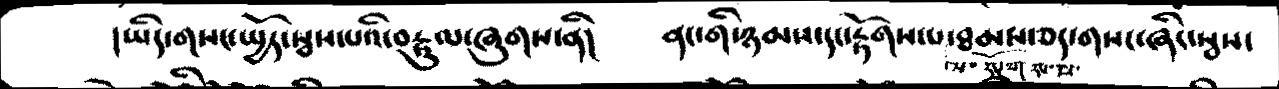།ཡིད་གསང་སྤྱོད་སྦས་པའི་བརྟུལ་ཞུགས་ནི།   ནང་གི་ཉམས་དང་རྟོགས་པ་ཐམས་ཅད་གསང་ཞིང་སྦས་
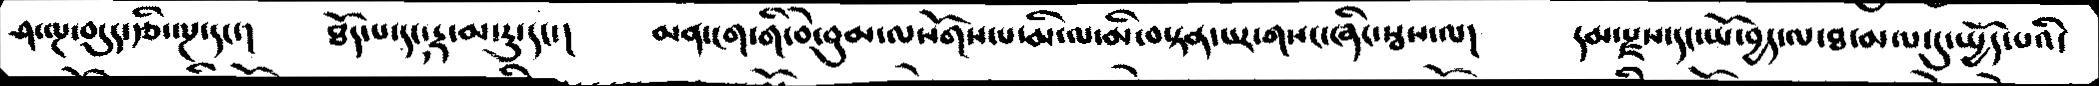ཤ་ལྔ་བདུད་རྩི་ལྔ་དང་།   ཐོད་པ་དང་རྡ་མ་རུ་དང་།   མན་ངག་གི་བེ་བུམ་ལསོགས་པ་མི་ལ་མི་བསྟན་པར་གསང་ཞིང་སྦས་ལ།   དམ་རྫས་དང་ཡོ་བྱད་ལ་ཐ་མལ་དུ་སྤྱོད་པའི་
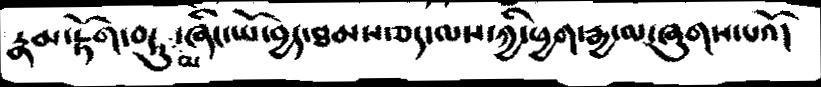རྣམ་རྟོག་བཏུམ་ཞིང་ཡོ་བྱད་ཐམས་ཅད་ལས་ཀྱི་ཕྱག་རྒྱ་ལ་ཞུགས་པའོ།
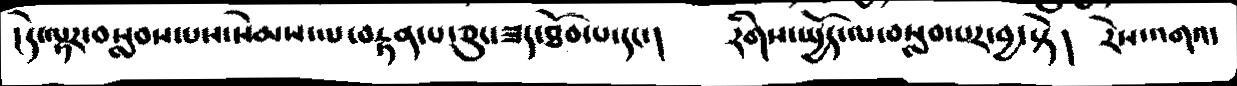།དེ་ལྟར་བསླབས་པས་སེམས་ལ་བརྟན་པ་ཅུང་ཟད་ཐོབ་པ་དང་།     རིགས་སྤྱོད་ལ་བསླབ་པར་བྱ་སྟེ།   རེས་འགའ་
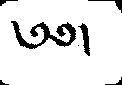༄༅།
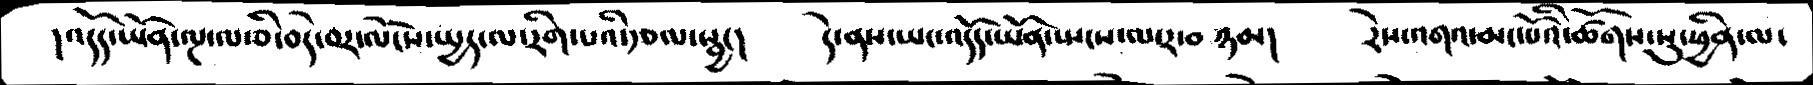།འདོད་ཡོན་ལྔ་ལ་ཅི་བདེ་བར་ལོངས་སྤྱད་ལ་རིག་པའི་རྩལ་སྦྱང།   དེ་ནས་ཡང་འདོད་ཡོན་སྤངས་ལ་ར་བ ཉམ།  རེས་འགའ་མང་པོའི་ཚོགས་སུ་ཕྱིན་ལ་
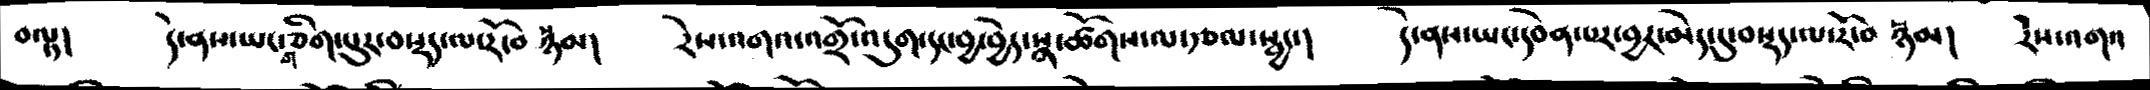བལྟ།   དེ་ནས་ཡང་གཅིག་པུར་བསྡད་ལ་རོ་བསྙམ།   རེས་འགའ་འགྲོ་འདུག་དང་བྱ་བྱེད་སྣ་ཚོགས་ལ་རྩལ་སྦྱང་།   དེ་ནས་ཡང་དབེན་པར་བྱར་མེད་དུ་བསྡད་ལ་རོ་བསྙམ།   རེས་འགའ་
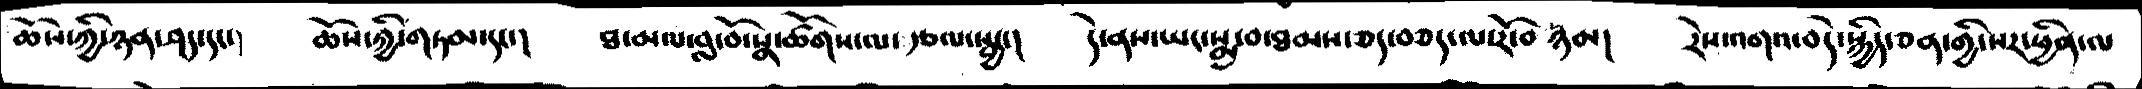ཆོས་ཀྱི་ཉན་ཤད་དང་།   ཆོས་ཀྱི་གཏམ་དང་།   ཐ་མ་ལ་བླ་བོ་སྣ་ཚོགས་ལ་རྩལ་སྦྱང།    དེ་ནས་ཡང་སྨྲ་བ་ཐམས་ཅད་བཅད་ལ་རོ་བསྙམ།   རེས་འགའ་བདེ་སྐྱིད་ཅན་གྱི་སར་ཕྱིན་ལ
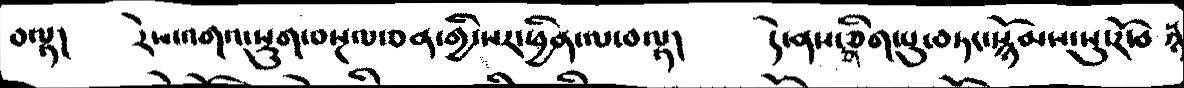བལྟ།   རེས་འགའ་སྡུག་བསྔལ་ཅན་གྱི་སར་ཕྱིན་ལ་བལྟ།   དེ་ནས་གཅིག་པུ་བཏང་སྙོམས་སུ་རོ་བསྙ
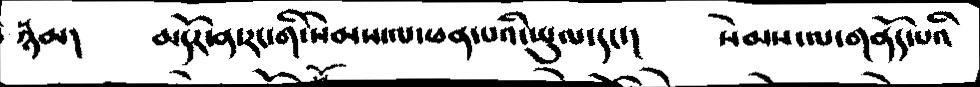སྙམ།   མདོར་ན་རང་གི་སེམས་ལ་ཕན་པའི་ཡུལ་དང་།   སེམས་ལ་གནོད་པའི་
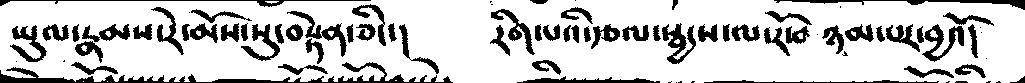ཡུལ་རྣམས་རེ་མོས་སུ་བསྟེན་ཅིང་།   རིག་པའི་རྩལ་སྦྱངས་ལ་རོ་བ ཉམ་པར་བྱའོ།
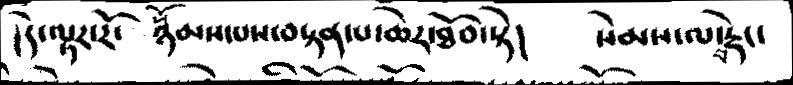དེར་ལྟར་རོ་སྙོམས་པས་བསྟན་པ་ཆེར་ཐོབ་སྟེ།   སེམས་ལ་བརྡེང་
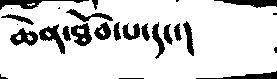ཆེན་ཐོབ་པ་དང་།
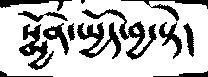སྨྱོན་སྤྱོད་བྱ་སྟེ།
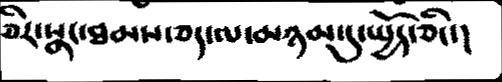ཅིར་སྣང་ཐམས་ཅད་ལ་མཉམ་དུ་སྤྱོད་ཅིང་།
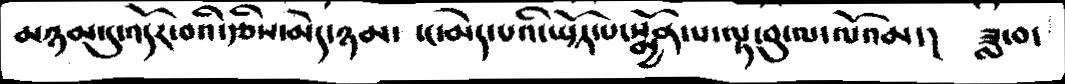མཉམ་དུ་འདོར་བའི་རྩིས་མེད་ཉམ་  ་ང་མེད་པའི་སྤྱོད་པ་སྨྱོན་པ་ལྟ་བུ་ལ་ལོའམ་།   ཟླ་བ་
